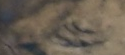༡༥
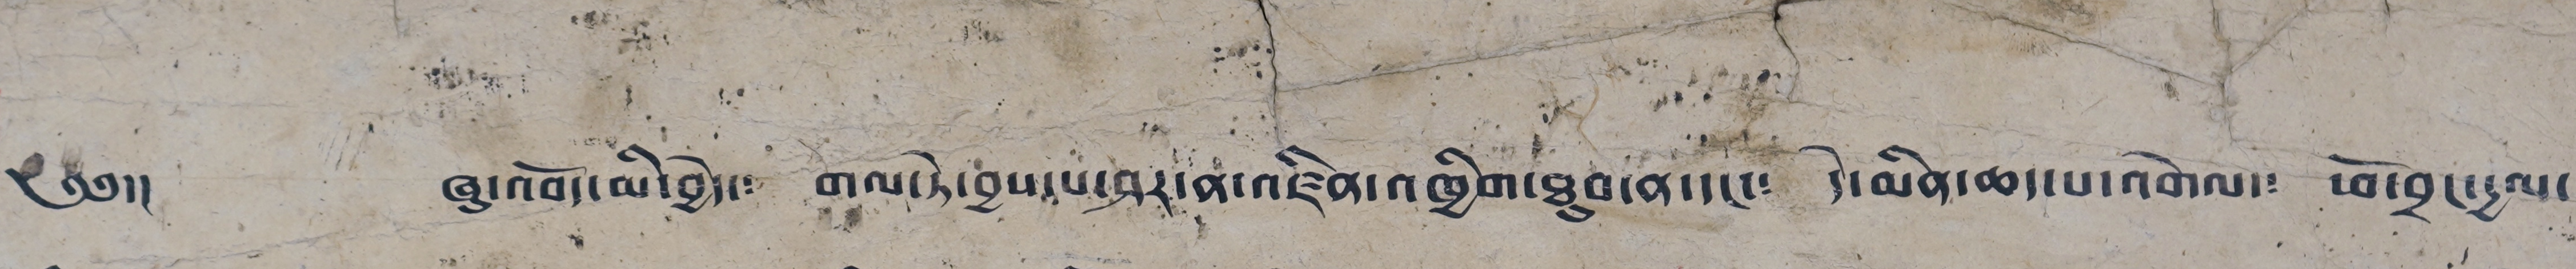༄༅།། ཞུ་འབོད་མི་བྱེད་༴ གལ་ཏེ་བྱས་པ་ཤར་ན་འཛིན་འཁྱིག་ཐུབ་ན་དང་༴ དེ་མིན་ཆད་པ་འགེལ་༴ ཕོ་བྲང་དྱལ་
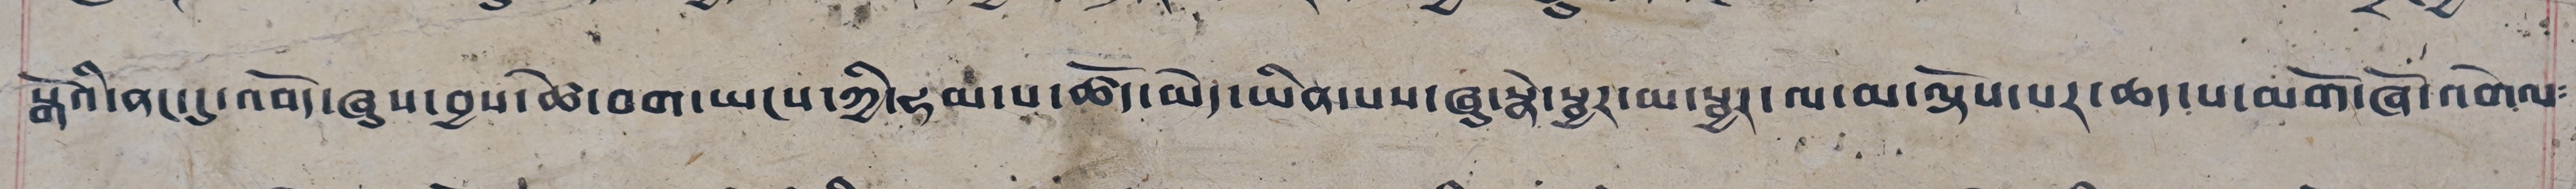སྒོའི་ནང་དུ་འབོད་ཞུས་བྱས་ཚེ་བག་ཡངས་ཀྱི་ཧམ་པ་ཚོད་མེད་ཡིན་པས་ཞུ་སྣེ་སྦྱར་མ་སྦྱར་ལ་མ་ལྟོས་པར་ཆད་པ་མགོ་ཞོ་འགེལ༴
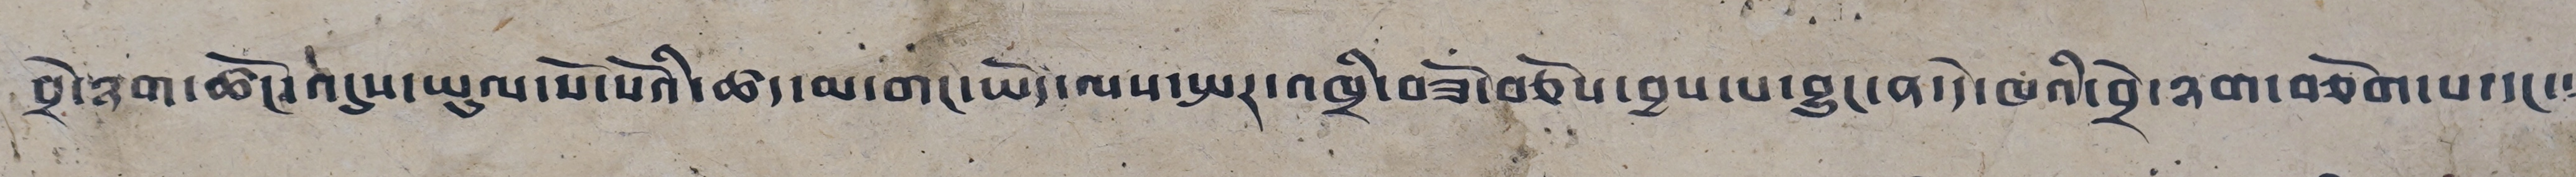བྲེ་ཉག་ཚོང་འདུས་ཡུལ་སོ་སོའི་ཚད་མ་གང་ཡོད་ལས་སྤར་འཁྲི་བཟོ་བཅོས་བྱས་པ་བྱུང་ན་དེ་ཁའི་བྲེ་ཉག་བཅོག་པ་དང་༴
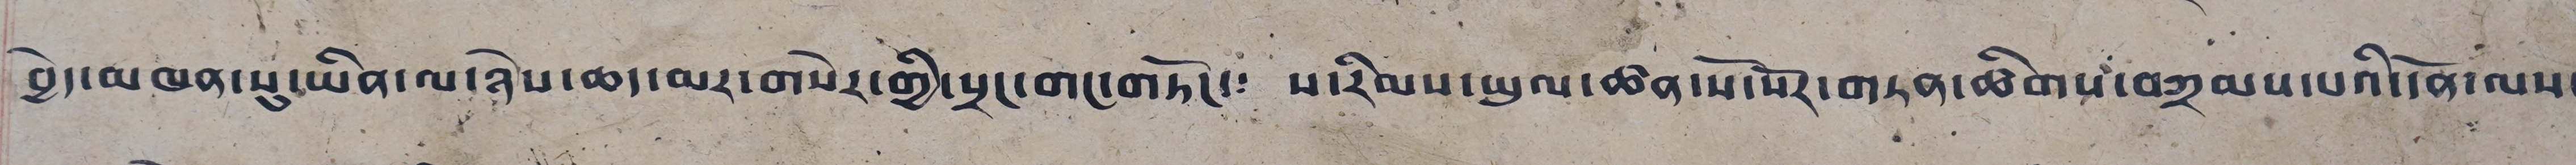བྱེད་མཁན་སུ་ཡིན་ལ་ཉེས་ཆད་མར་གསེར་གྱི་སྲང་གང་གཏོང་༴ ས་རིམས་ཡུལ་ཚན་སོ་སོར་གཏན་ཚིགས་བཀྲམས་པའི་དོན་ལས་
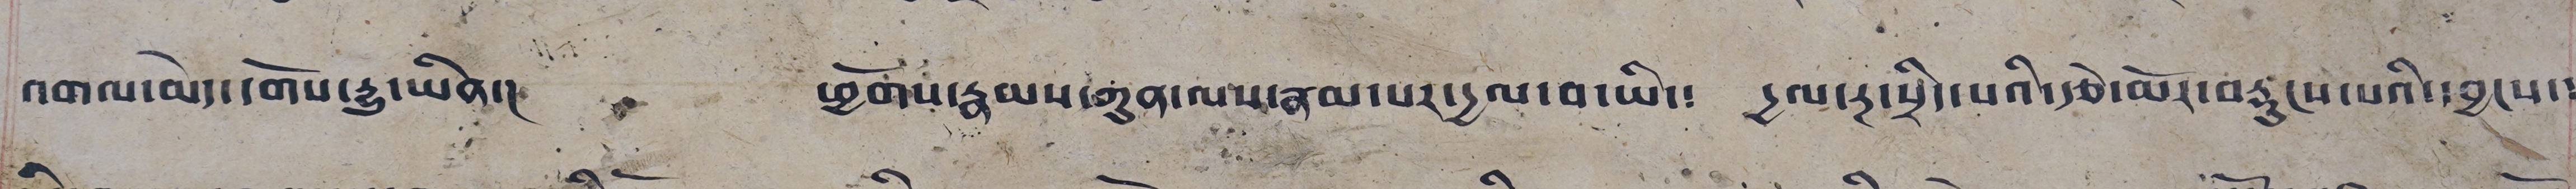འགལ་མེད་དགོས་རྒྱུ་ཡིན་༴ ཕྱོགས་རྣམས་ཀུན་ལས་རྣམ་པར་དྱལ་བ་ཡི་༴ དྱལ་རྔ་སྲིད་པའི་རྩེ་མོར་བརྡུངས་པའི་དབྱངས་༴
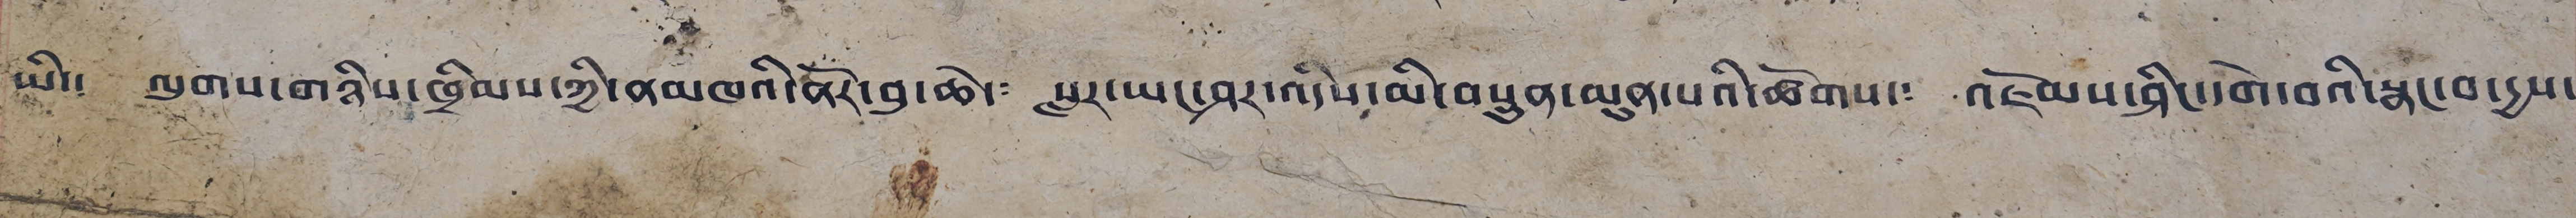ཡི་༴ ལུགས་གཉིས་ཁྲིམས་ཀྱི་ནམཁའི་ནོར་བུ་ཆེ་༴ སླར་ཡང་ཤར་འདིས་མི་བསྲུན་མུན་པའི་ཚོགས་༴ འཛོམས་ཤིང་དགེ་བའི་སྣང་བ་དྱས་
